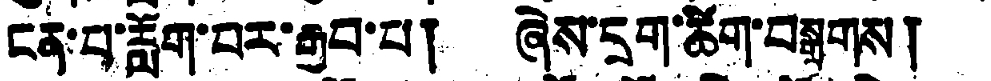ངན་པ་རློག་པར་རྒྱབ་པ། ཞེས་དྲག་ཚིག་བསྒྲགས།
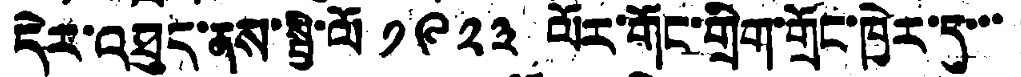དེར་འཐུད་ནས་སྤྱི་ལོ ༡༩༢༣ ལོར་གོང་གྲིག་གྲོང་ཁྱེར་དུ་་་
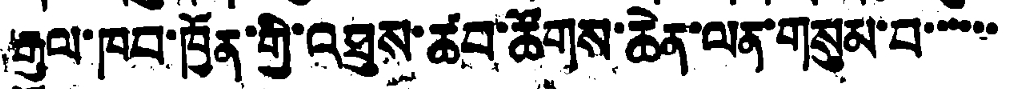རྒྱལ་ཁབ་ཁྱོན་གྱི་འཐུས་ཚབ་ཚོགས་ཆེན་ལན་གསུམ་པ་་་་་་
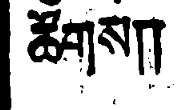ཚོགས༎
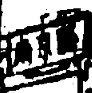南京路
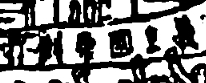打倒帝國主義
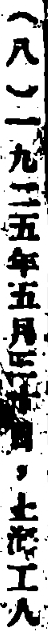（八）一九二五年五月三十日，上海工人
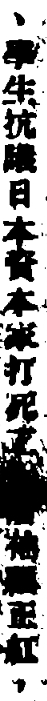、學生抗議日本資本家打死工人領袖顧正紅，
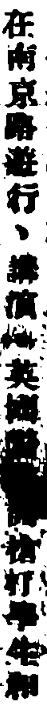在南京路遊行、講演。英國督查開槍打學生和
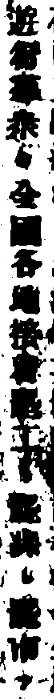遊行羣衆。全國各地接着罷工、罷課、罷市，
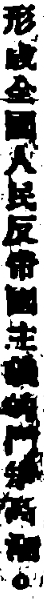形成全國人民反帝國主義的鬥爭高潮。
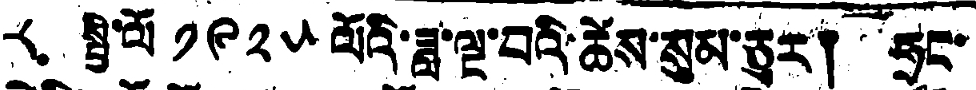༨ སྤྱི་ལོའི་ ༡༩༢༥ ལོའི་ཟླ་ལྔ་བའི་ཚེས་སུམ་ཅུར། ཧྲང་
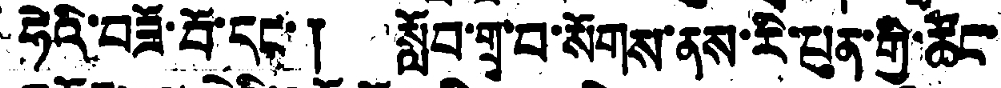ཧེའི་བཟོ་བོ་དང་། སློབ་གྲྭ་བ་སོགས་ནས་རི་པུན་གྱི་ཚོང་
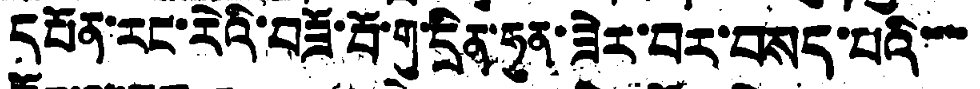དཔོན་རང་རེའི་བཟོ་བོ་གུ་དྲིན་ཧུན་ཟེར་བར་བསད་པའི་་་་
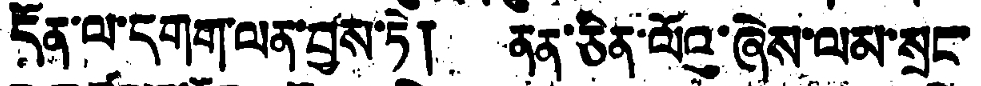དོན་ལ་དགག་ལན་བྱས་ཏེ། ནན་ཅིན་ལོའུ་ཞེས་ལམ་སྲང་
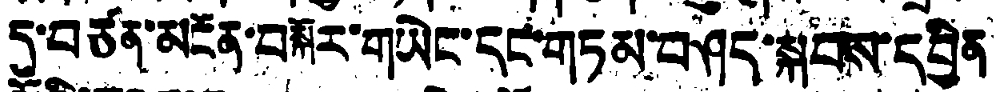དུ་བཙན་མངོན་བསྐོར་གཡེང་དང་གཏམ་བཤད་སྐབས་དབྱིན
